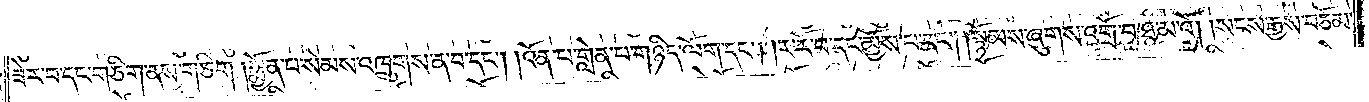ཟེར་བ་དང་གཅིག་ནས་གཅིག །སྨྱོན་པ་སེམས་འཁྲུགས་ན་བ་དང༌། །འོན་པ་གླེན་པ་གཉིད་ལོག་དང༌། །ར་རོ་བ་དང་མྱོས་པ་དང༌། །སྙོམས་ཞུགས་འགྲོ་བ་ཐ་མའོ། །སངས་རྒྱས་བཅོམ་
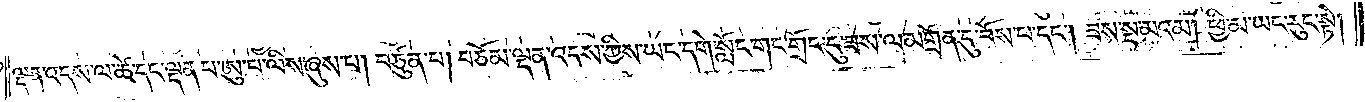ལྡན་འདས་ལ་ཚེ་དང་ལྡན་པ་ཨུ་པ་ལིས་ཞུས་པ། བཙུན་པ། བཅོམ་ལྡན་འདས་ཀྱིས་ཡང་དགེ་སློང་གང་གྲོང་དུ་ཟས་ལ་མགྲོན་དུ་བོས་པ་དང༌། ཟས་སྔ་མའམ། ཕྱི་མ་ཡང་རུང་སྟེ།
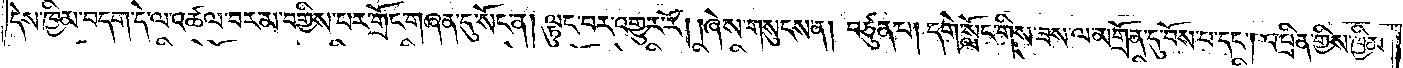དེས་ཁྱིམ་བདག་དེ་ལ་འཚལ་བར་མ་བགྱིས་པར་གྲོང་གཞན་དུ་སོང་ན། ལྟུང་བར་འགྱུར་རོ། །ཞེས་གསུངས་ན། བཙུན་པ། དགེ་སློང་གིས་ཟས་ལ་མགྲོན་དུ་བོས་པ་དང༌། འཕྲིན་གྱིས་ཁྱིམ་
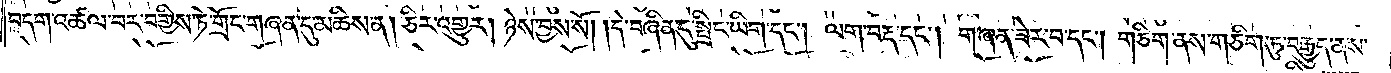བདག་འཚལ་བར་བགྱིས་ཏེ་གྲོང་གཞན་དུ་མཆིས་ན། ཅིར་འགྱུར། ཉེས་བྱས་སོ། །དེ་བཞིན་དུ་སྤྲིང་ཡིག་དང༌། ལག་བརྡ་དང༌། གཞན་ཟེར་བ་དང༌། གཅིག་ནས་གཅིག་ཏུ་བརྒྱུད་ནས་
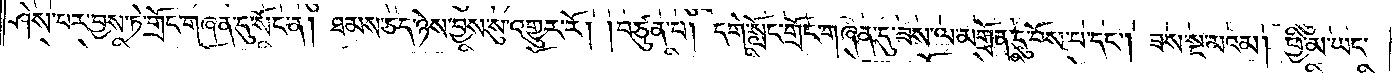ཤེས་པར་བྱས་ཏེ་གྲོང་གཞན་དུ་སོང་ན། ཐམས་ཅད་ཉེས་བྱས་སུ་འགྱུར་རོ། །བཙུན་པ། དགེ་སློང་གྲོང་གཞན་དུ་ཟས་ལ་མགྲོན་དུ་བོས་པ་དང༌། ཟས་སྔ་མའམ། ཕྱི་མ་ཡང་
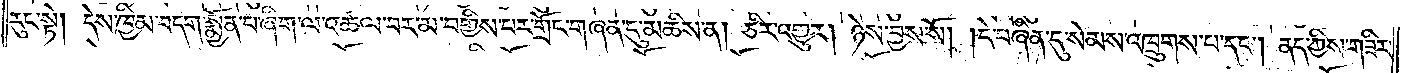རུང་སྟེ། དེས་ཁྱིམ་བདག་སྨྱོན་པ་ཞིག་ལ་འཚལ་བར་མ་བགྱིས་པར་གྲོང་གཞན་དུ་མཆིས་ན། ཅིར་འགྱུར། ཉེས་བྱས་སོ། །དེ་བཞིན་དུ་སེམས་འཁྲུགས་པ་དང༌། ནད་ཀྱིས་གཟིར་
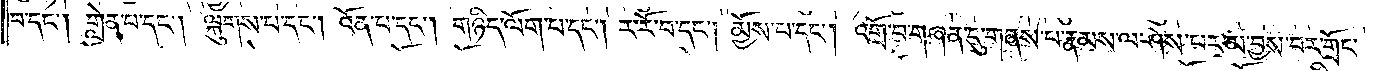བ་དང༌། གླེན་པ་དང༌། ལྐུགས་པ་དང༌། འོན་པ་དང༌། གཉིད་ལོག་པ་དང༌། ར་རོ་བ་དང༌། མྱོས་པ་དང༌། འགྲོ་བ་གཞན་དུ་གནས་པ་རྣམས་ལ་ཤེས་པར་མ་བྱས་པར་གྲོང་
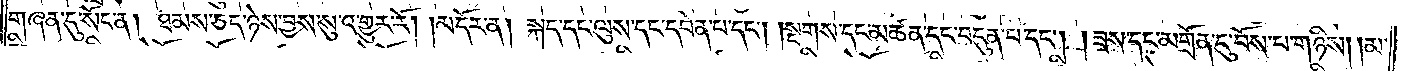གཞན་དུ་སོང་ན། ཐམས་ཅད་ཉེས་བྱས་སུ་འགྱུར་རོ། །མདོར་ན། སྐད་དང་ལུས་དང་དབེན་པ་དང༌། །སྔགས་དང་མཚན་དང་བདུན་པ་དང༌། །ཟས་དང་མགྲོན་དུ་བོས་པ་གཉིས། །མ་
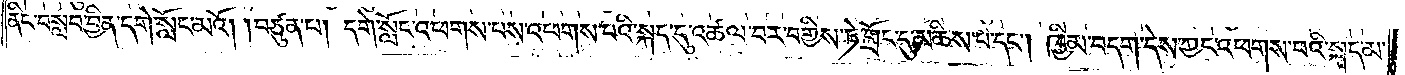ནིང་བསླབ་བྱིན་དགེ་སློང་མའོ། །བཙུན་པ། དགེ་སློང་འཕགས་པས་འཕགས་པའི་སྐད་དུ་འཚལ་བར་བགྱིས་ཏེ་གྲོང་དུ་མཆིས་པ་དང༌། ཁྱིམ་བདག་དེས་ཀྱང་འཕགས་པའི་སྐད་མ་
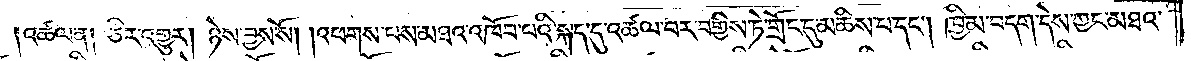།འཚལ་ན། ཅིར་འགྱུར། ཉེས་བྱས་སོ། །འཕགས་པས་མཐའ་འཁོབ་པའི་སྐད་དུ་འཚལ་བར་བགྱིས་ཏེ་གྲོང་དུ་མཆིས་པ་དང༌། ཁྱིམ་བདག་དེས་ཀྱང་མཐའ་
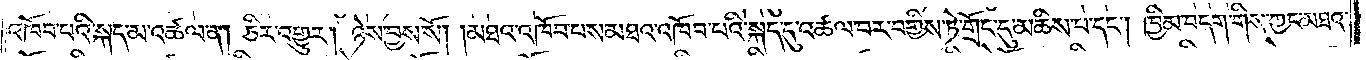འཁོབ་པའི་སྐད་མ་འཚལ་ན། ཅིར་འགྱུར། ཉེས་བྱས་སོ། །མཐའ་འཁོབ་པས་མཐའ་འཁོབ་པའི་སྐད་དུ་འཚལ་བར་བགྱིས་ཏེ་གྲོང་དུ་མཆིས་པ་དང༌། ཁྱིམ་བདག་གིས་ཀྱང་མཐའ་
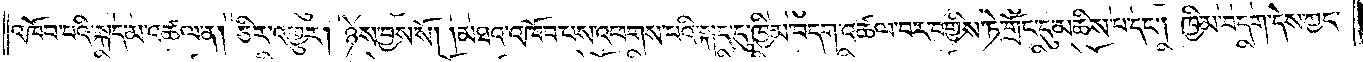འཁོབ་པའི་སྐད་མ་འཚལ་ན། ཅིར་འགྱུར། ཉེས་བྱས་སོ། །མཐའ་འཁོབ་པས་འཕགས་པའི་སྐད་དུ་ཁྱིམ་བདག་འཚལ་བར་བགྱིས་ཏེ་གྲོང་དུ་མཆིས་པ་དང༌། ཁྱིམ་བདག་དེས་ཀྱང་
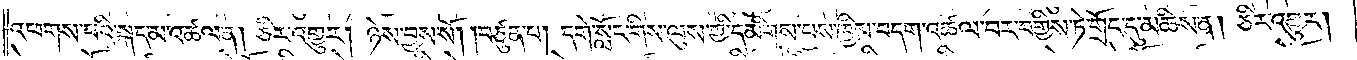འཕགས་པའི་སྐད་མ་འཚལ་ན། ཅིར་འགྱུར། ཉེས་བྱས་སོ། །བཙུན་པ། དགེ་སློང་གིས་ལུས་ཀྱི་དམིགས་པས་ཁྱིམ་བདག་འཚལ་བར་བགྱིས་ཏེ་གྲོང་དུ་མཆིས་ན། ཅིར་འགྱུར།
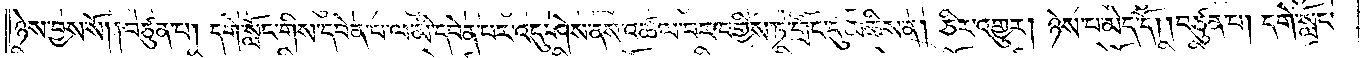ཉེས་བྱས་སོ། །བཙུན་པ། དགེ་སློང་གིས་དབེན་པ་ལ་མི་དབེན་པར་འདུ་ཤེས་ནས་འཚལ་བར་བགྱིས་ཏེ་གྲོང་དུ་མཆིས་ན། ཅིར་འགྱུར། ཉེས་པ་མེད་དོ། །བཙུན་པ། དགེ་སློང་
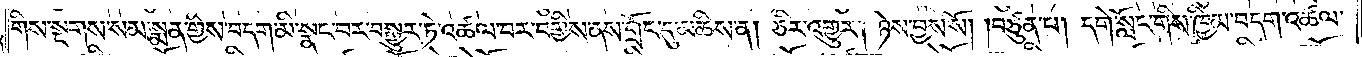གིས་སྔགས་སམ་སྨན་གྱིས་བདག་མི་སྣང་བར་བསྒྱུར་ཏེ་འཚལ་བར་བགྱིས་ནས་གྲོང་དུ་མཆིས་ན། ཅིར་འགྱུར། ཉེས་བྱས་སོ། །བཙུན་པ། དགེ་སློང་གིས་ཁྱིམ་བདག་འཚལ་
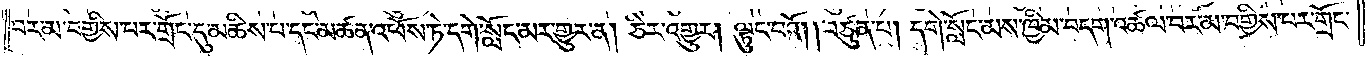བར་མ་བགྱིས་བར་གྲོང་དུ་མཆིས་པ་དང་མཚན་འཕོས་ཏེ་དགེ་སློང་མར་གྱུར་ན། ཅིར་འགྱུར། ལྟུང་བའོ། །བཙུན་པ། དགེ་སློང་མས་ཁྱིམ་བདག་འཚལ་བར་མ་བགྱིས་པར་གྲོང་
